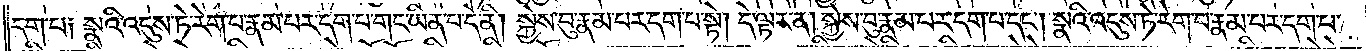དག་པ༑ སྣའི་འདུས་ཏེ་རེག་པ་རྣམ་པར་དག་པ་གང་ཡིན་པ་དེ་ནི། སྐྱེས་བུ་རྣམ་པར་དག་པ་སྟེ། དེ་ལྟར་ན། སྐྱེས་བུ་རྣམ་པར་དག་པ་དང༌། སྣའི་འདུས་ཏེ་རེག་པ་རྣམ་པར་དག་པ་
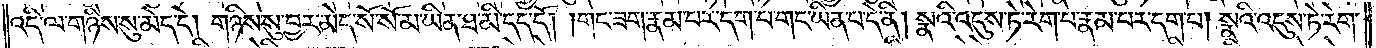འདི་ལ་གཉིས་སུ་མེད་དེ། གཉིས་སུ་བྱར་མེད་སོ་སོ་མ་ཡིན་ཐ་མི་དད་དོ། །གང་ཟག་རྣམ་པར་དག་པ་གང་ཡིན་པ་དེ་ནི། སྣའི་འདུས་ཏེ་རེག་པ་རྣམ་པར་དག་པ། སྣའི་འདུས་ཏེ་རེག་
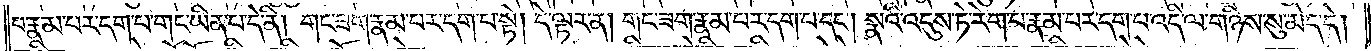པ་རྣམ་པར་དག་པ་གང་ཡིན་པ་དེ་ནི། གང་ཟག་རྣམ་པར་དག་པ་སྟེ། དེ་ལྟར་ན། གང་ཟག་རྣམ་པར་དག་པ་དང༌། སྣའི་འདུས་ཏེ་རེག་པ་རྣམ་པར་དག་པ་འདི་ལ་གཉིས་སུ་མེད་དེ།
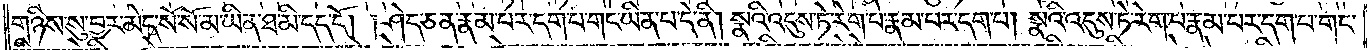གཉིས་སུ་བྱར་མེད་སོ་སོ་མ་ཡིན་ཐ་མི་དད་དོ། །ཤེད་ཅན་རྣམ་པར་དག་པ་གང་ཡིན་པ་དེ་ནི། སྣའི་འདུས་ཏེ་རེག་པ་རྣམ་པར་དག་པ། སྣའི་འདུས་ཏེ་རེག་པ་རྣམ་པར་དག་པ་གང་
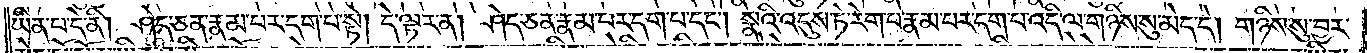ཡིན་པ་དེ་ནི། ཤེད་ཅན་རྣམ་པར་དག་པ་སྟེ། དེ་ལྟར་ན། ཤེད་ཅན་རྣམ་པར་དག་པ་དང༌། སྣའི་འདུས་ཏེ་རེག་པ་རྣམ་པར་དག་པ་འདི་ལ་གཉིས་སུ་མེད་དེ། གཉིས་སུ་བྱར་
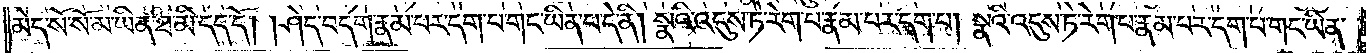མེད་སོ་སོ་མ་ཡིན་ཐ་མི་དད་དོ། །ཤེད་བདག་རྣམ་པར་དག་པ་གང་ཡིན་པ་དེ་ནི། སྣའི་འདུས་ཏེ་རེག་པ་རྣམ་པར་དག་པ། སྣའི་འདུས་ཏེ་རེག་པ་རྣམ་པར་དག་པ་གང་ཡིན་
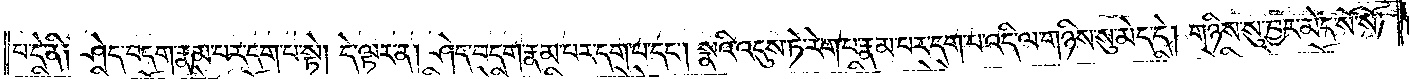པ་དེ་ནི༑ ཤེད་བདག་རྣམ་པར་དག་པ་སྟེ། དེ་ལྟར་ན། ཤེད་བདག་རྣམ་པར་དག་པ་དང༌། སྣའི་འདུས་ཏེ་རེག་པ་རྣམ་པར་དག་པ་འདི་ལ་གཉིས་སུ་མེད་དེ། གཉིས་སུ་བྱར་མེད་སོ་སོ་
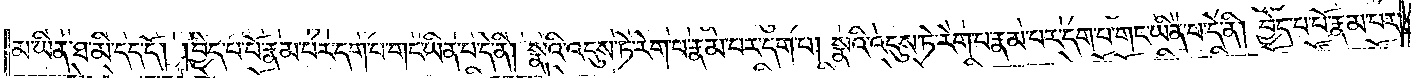མ་ཡིན་ཐ་མི་དད་དོ། །བྱེད་པ་པོ་རྣམ་པར་དག་པ་གང་ཡིན་པ་དེ་ནི། སྣའི་འདུས་ཏེ་རེག་པ་རྣམ་པར་དག་པ། སྣའི་འདུས་ཏེ་རེག་པ་རྣམ་པར་དག་པ་གང་ཡིན་པ་དེ་ནི། བྱེད་པ་པོ་རྣམ་པར་
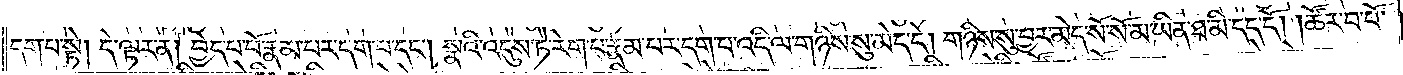དག་པ་སྟེ། དེ་ལྟར་ན། བྱེད་པ་པོ་རྣམ་པར་དག་པ་དང༌། སྣའི་འདུས་ཏེ་རེག་པ་རྣམ་པར་དག་པ་འདི་ལ་གཉིས་སུ་མེད་དེ། གཉིས་སུ་བྱར་མེད་སོ་སོ་མ་ཡིན་ཐ་མི་དད་དོ། །ཚོར་བ་པོ་
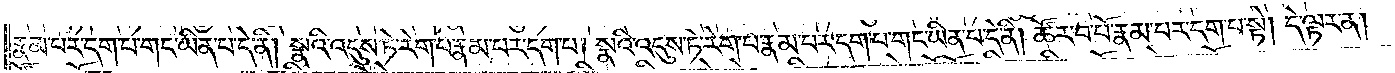རྣམ་པར་དག་པ་གང་ཡིན་པ་དེ་ནི། སྣའི་འདུས་ཏེ་རེག་པ་རྣམ་པར་དག་པ། སྣའི་འདུས་ཏེ་རེག་པ་རྣམ་པར་དག་པ་གང་ཡིན་པ་དེ་ནི། ཚོར་བ་པོ་རྣམ་པར་དག་པ་སྟེ། དེ་ལྟར་ན།
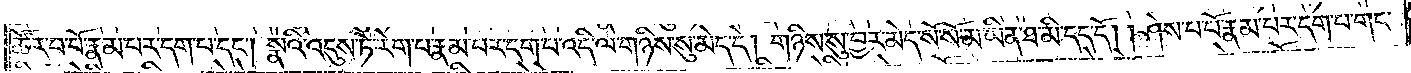ཚོར་བ་པོ་རྣམ་པར་དག་པ་དང༌། སྣའི་འདུས་ཏེ་རེག་པ་རྣམ་པར་དག་པ་འདི་ལ་གཉིས་སུ་མེད་དེ། གཉིས་སུ་བྱར་མེད་སོ་སོ་མ་ཡིན་ཐ་མི་དད་དོ། །ཤེས་པ་པོ་རྣམ་པར་དག་པ་གང་
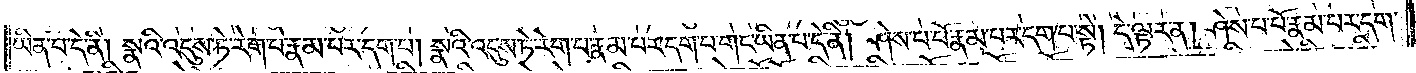ཡིན་པ་དེ་ནི། སྣའི་འདུས་ཏེ་རེག་པ་རྣམ་པར་དག་པ། སྣའི་འདུས་ཏེ་རེག་པ་རྣམ་པར་དག་པ་གང་ཡིན་པ་དེ་ནི། ཤེས་པ་པོ་རྣམ་པར་དག་པ་སྟེ། དེ་ལྟར་ན། ཤེས་པ་པོ་རྣམ་པར་དག་
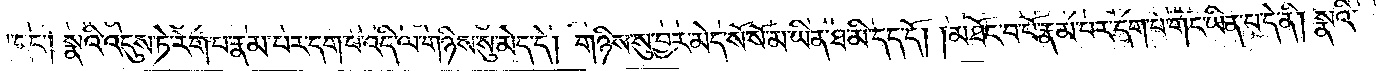པ་དང༌། སྣའི་འདུས་ཏེ་རེག་པ་རྣམ་པར་དག་པ་འདི་ལ་གཉིས་སུ་མེད་དེ། གཉིས་སུ་བྱར་མེད་སོ་སོ་མ་ཡིན་ཐ་མི་དད་དོ། །མཐོང་བ་པོ་རྣམ་པར་དག་པ་གང་ཡིན་པ་དེ་ནི། སྣའི་
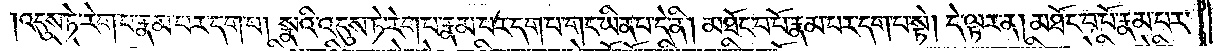འདུས་ཏེ་རེག་པ་རྣམ་པར་དག་པ། སྣའི་འདུས་ཏེ་རེག་པ་རྣམ་པར་དག་པ་གང་ཡིན་པ་དེ་ནི། མཐོང་བ་པོ་རྣམ་པར་དག་པ་སྟེ། དེ་ལྟར་ན། མཐོང་བ་པོ་རྣམ་པར་
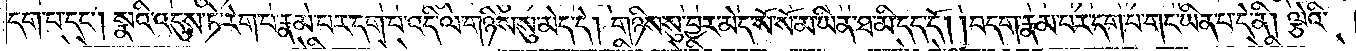དག་པ་དང༌། སྣའི་འདུས་ཏེ་རེག་པ་རྣམ་པར་དག་པ་འདི་ལ་གཉིས་སུ་མེད་དེ། གཉིས་སུ་བྱར་མེད་སོ་སོ་མ་ཡིན་ཐ་མི་དད་དོ། །བདག་རྣམ་པར་དག་པ་གང་ཡིན་པ་དེ་ནི། ལྕེའི་
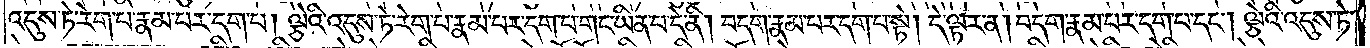འདུས་ཏེ་རེག་པ་རྣམ་པར་དག་པ། ལྕེའི་འདུས་ཏེ་རེག་པ་རྣམ་པར་དག་པ་གང་ཡིན་པ་དེ་ནི། བདག་རྣམ་པར་དག་པ་སྟེ། དེ་ལྟར་ན། བདག་རྣམ་པར་དག་པ་དང༌། ལྕེའི་འདུས་ཏེ་
